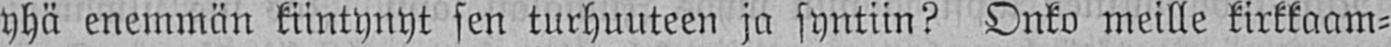yhä enemmän kiintynyt sen turhuuteen ja syntiin? Onko meille kirkkaam-
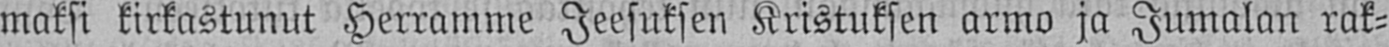maksi kirkastunut Herramme Jeesuksen Kristuksen armo ja Jumalan rak-
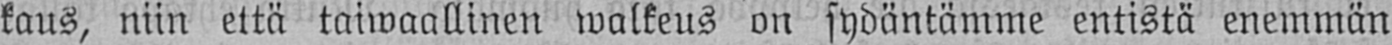kaus, niin että taiwaallinen walkeus on sydäntämme entistä enemmän
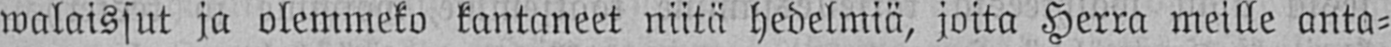walaissut ja olemmeko kantaneet niitä hedelmiä, joita Herra meille anta-
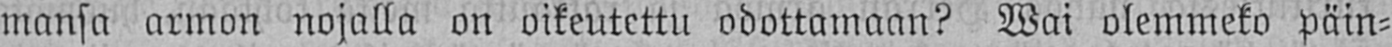mansa armon nojalla on oikeutettu odottamaan? Wai olemmeko päin-
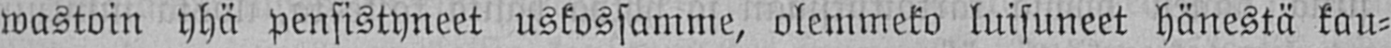wastoin yhä pensistyneet uskossamme, olemmeko luisuneet hänestä kau-
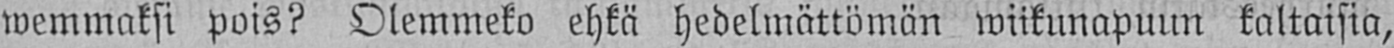wemmaksi pois? Olemmeko ehkä hedelmättömän wiikunapuun kaltaisia,
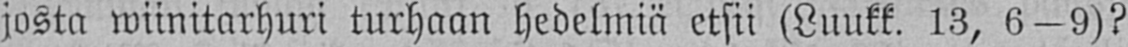josta wiinitarhuri turhaan hedelmiä etsii (Luukk. 13, 6 — 9)?
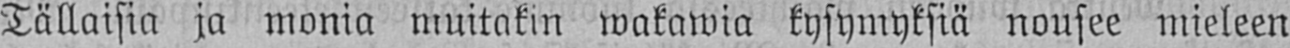Tällaisia ja monia muitakin wakawia kysymyksiä nousee mieleen
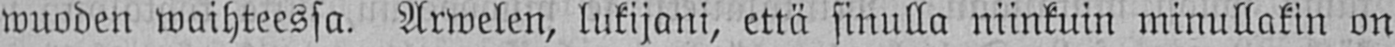wuoden waihteessa. Arwelen, lukijani, että sinulla niinkuin minullakin on
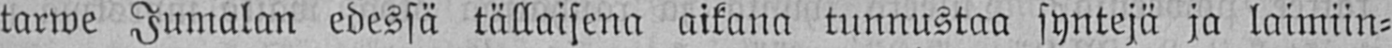tarwe Jumalan edessä tällaisena aikana tunnustaa syntejä ja laimiin-
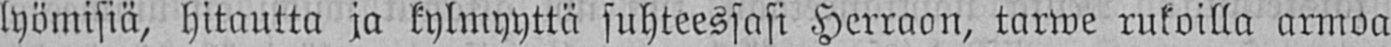lyömisiä, hitautta ja kylmyyttä suhteessasi Herraan, tarwe rukoilla armoa
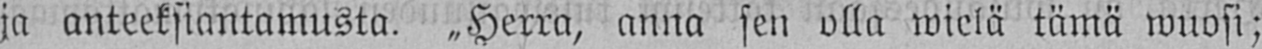ja anteeksiantamusta. „Herra, anna sen olla wielä tämä wuosi; — —
